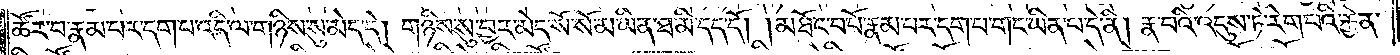ཚོར་བ་རྣམ་པར་དག་པ་འདི་ལ་གཉིས་སུ་མེད་དེ། གཉིས་སུ་བྱར་མེད་སོ་སོ་མ་ཡིན་ཐ་མི་དད་དོ། །མཐོང་བ་པོ་རྣམ་པར་དག་པ་གང་ཡིན་པ་དེ་ནི། རྣ་བའི་འདུས་ཏེ་རེག་པའི་རྐྱེན་
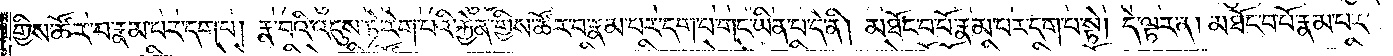གྱིས་ཚོར་བ་རྣམ་པར་དག་པ། རྣ་བའི་འདུས་ཏེ་རེག་པའི་རྐྱེན་གྱིས་ཚོར་བ་རྣམ་པར་དག་པ་གང་ཡིན་པ་དེ་ནི། མཐོང་བ་པོ་རྣམ་པར་དག་པ་སྟེ། དེ་ལྟར་ན། མཐོང་བ་པོ་རྣམ་པར་
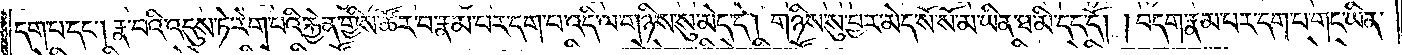དག་པ་དང༌། རྣ་བའི་འདུས་ཏེ་རེག་པའི་རྐྱེན་གྱིས་ཚོར་བ་རྣམ་པར་དག་པ་འདི་ལ་གཉིས་སུ་མེད་དེ། གཉིས་སུ་བྱར་མེད་སོ་སོ་མ་ཡིན་ཐ་མི་དད་དོ། །བདག་རྣམ་པར་དག་པ་གང་ཡིན་
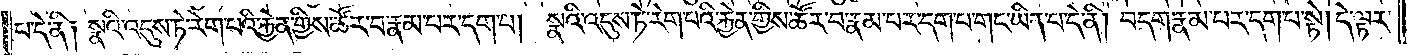པ་དེ་ནི༑ སྣའི་འདུས་ཏེ་རེག་པའི་རྐྱེན་གྱིས་ཚོར་བ་རྣམ་པར་དག་པ། སྣའི་འདུས་ཏེ་རེག་པའི་རྐྱེན་གྱིས་ཚོར་བ་རྣམ་པར་དག་པ་གང་ཡིན་པ་དེ་ནི། བདག་རྣམ་པར་དག་པ་སྟེ། དེ་ལྟར་
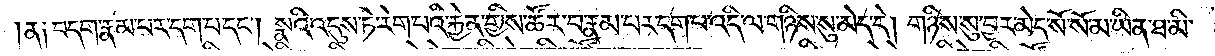ན༑ བདག་རྣམ་པར་དག་པ་དང༌། སྣའི་འདུས་ཏེ་རེག་པའི་རྐྱེན་གྱིས་ཚོར་བ་རྣམ་པར་དག་པ་འདི་ལ་གཉིས་སུ་མེད་དེ། གཉིས་སུ་བྱར་མེད་སོ་སོ་མ་ཡིན་ཐ་མི་
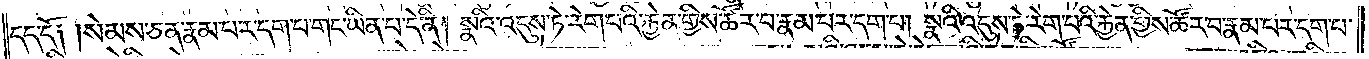དད་དོ༑ །སེམས་ཅན་རྣམ་པར་དག་པ་གང་ཡིན་པ་དེ་ནི། སྣའི་འདུས་ཏེ་རེག་པའི་རྐྱེན་གྱིས་ཚོར་བ་རྣམ་པར་དག་པ། སྣའི་འདུས་ཏེ་རེག་པའི་རྐྱེན་གྱིས་ཚོར་བ་རྣམ་པར་དག་པ་
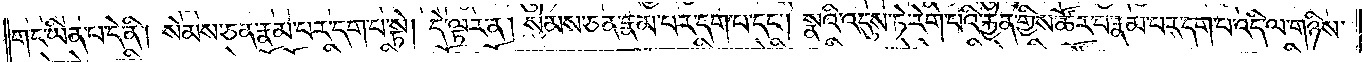གང་ཡིན་པ་དེ་ནི། སེམས་ཅན་རྣམ་པར་དག་པ་སྟེ། དེ་ལྟར་ན། སེམས་ཅན་རྣམ་པར་དག་པ་དང༌། སྣའི་འདུས་ཏེ་རེག་པའི་རྐྱེན་གྱིས་ཚོར་བ་རྣམ་པར་དག་པ་འདི་ལ་གཉིས་
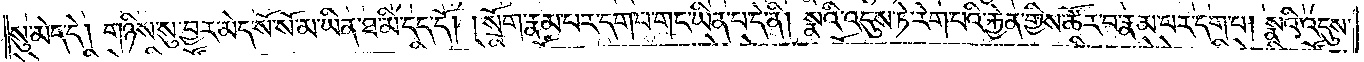སུ་མེད་དེ། གཉིས་སུ་བྱར་མེད་སོ་སོ་མ་ཡིན་ཐ་མི་དད་དོ། །སྲོག་རྣམ་པར་དག་པ་གང་ཡིན་པ་དེ་ནི། སྣའི་འདུས་ཏེ་རེག་པའི་རྐྱེན་གྱིས་ཚོར་བ་རྣམ་པར་དག་པ། སྣའི་འདུས་
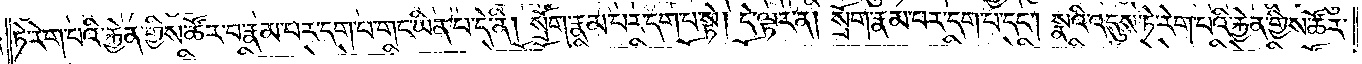ཏེ་རེག་པའི་རྐྱེན་གྱིས་ཚོར་བ་རྣམ་པར་དག་པ་གང་ཡིན་པ་དེ་ནི། སྲོག་རྣམ་པར་དག་པ་སྟེ། དེ་ལྟར་ན། སྲོག་རྣམ་པར་དག་པ་དང༌། སྣའི་འདུས་ཏེ་རེག་པའི་རྐྱེན་གྱིས་ཚོར་
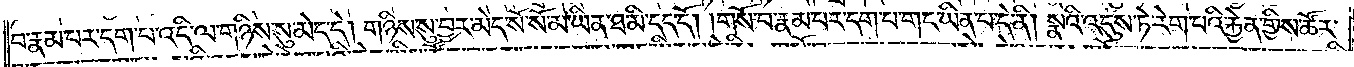བ་རྣམ་པར་དག་པ་འདི་ལ་གཉིས་སུ་མེད་དེ། གཉིས་སུ་བྱར་མེད་སོ་སོ་མ་ཡིན་ཐ་མི་དད་དོ། །གསོ་བ་རྣམ་པར་དག་པ་གང་ཡིན་པ་དེ་ནི། སྣའི་འདུས་ཏེ་རེག་པའི་རྐྱེན་གྱིས་ཚོར་
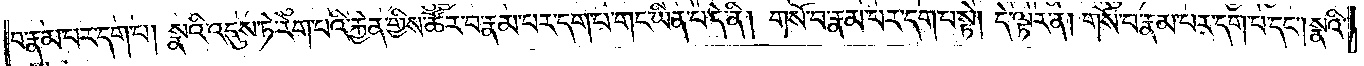བ་རྣམ་པར་དག་པ། སྣའི་འདུས་ཏེ་རེག་པའི་རྐྱེན་གྱིས་ཚོར་བ་རྣམ་པར་དག་པ་གང་ཡིན་པ་དེ་ནི། གསོ་བ་རྣམ་པར་དག་པ་སྟེ། དེ་ལྟར་ན། གསོ་བ་རྣམ་པར་དག་པ་དང༌། སྣའི་
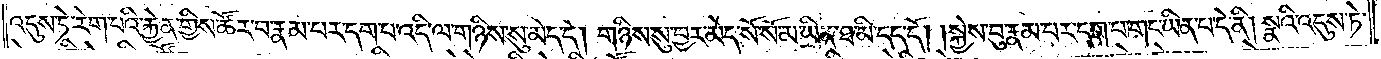འདུས་ཏེ་རེག་པའི་རྐྱེན་གྱིས་ཚོར་བ་རྣམ་པར་དག་པ་འདི་ལ་གཉིས་སུ་མེད་དེ། གཉིས་སུ་བྱར་མེད་སོ་སོ་མ་ཡིན་ཐ་མི་དད་དོ། །སྐྱེས་བུ་རྣམ་པར་དག་པ་གང་ཡིན་པ་དེ་ནི། སྣའི་འདུས་ཏེ་
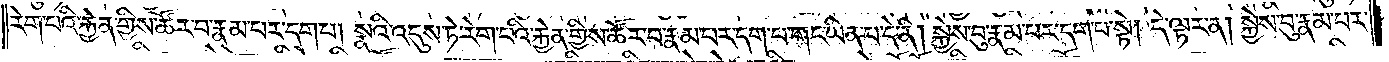རེག་པའི་རྐྱེན་གྱིས་ཚོར་བ་རྣམ་པར་དག་པ། སྣའི་འདུས་ཏེ་རེག་པའི་རྐྱེན་གྱིས་ཚོར་བ་རྣམ་པར་དག་པ་གང་ཡིན་པ་དེ་ནི། སྐྱེས་བུ་རྣམ་པར་དག་པ་སྟེ། དེ་ལྟར་ན། སྐྱེས་བུ་རྣམ་པར་
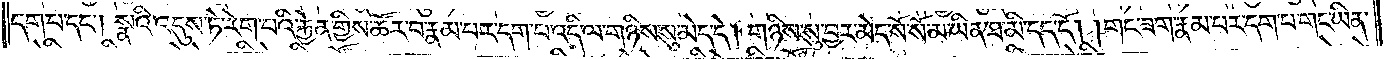དག་པ་དང༌། སྣའི་འདུས་ཏེ་རེག་པའི་རྐྱེན་གྱིས་ཚོར་བ་རྣམ་པར་དག་པ་འདི་ལ་གཉིས་སུ་མེད་དེ། གཉིས་སུ་བྱར་མེད་སོ་སོ་མ་ཡིན་ཐ་མི་དད་དོ། །གང་ཟག་རྣམ་པར་དག་པ་གང་ཡིན་
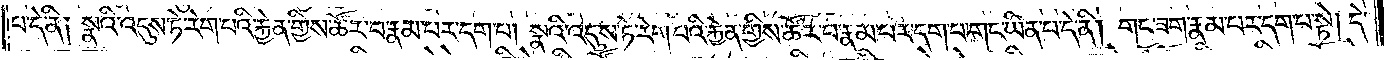པ་དེ་ནི། སྣའི་འདུས་ཏེ་རེག་པའི་རྐྱེན་གྱིས་ཚོར་བ་རྣམ་པར་དག་པ། སྣའི་འདུས་ཏེ་རེག་པའི་རྐྱེན་གྱིས་ཚོར་བ་རྣམ་པར་དག་པ་གང་ཡིན་པ་དེ་ནི། གང་ཟག་རྣམ་པར་དག་པ་སྟེ། དེ་
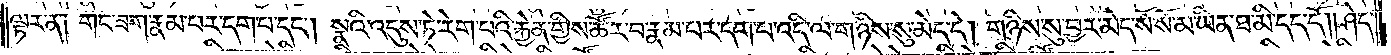ལྟར་ན། གང་ཟག་རྣམ་པར་དག་པ་དང༌། སྣའི་འདུས་ཏེ་རེག་པའི་རྐྱེན་གྱིས་ཚོར་བ་རྣམ་པར་དག་པ་འདི་ལ་གཉིས་སུ་མེད་དེ། གཉིས་སུ་བྱར་མེད་སོ་སོ་མ་ཡིན་ཐ་མི་དད་དོ། །ཤེད་
